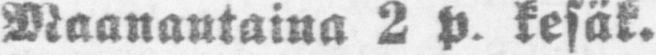Maanantaina 2 p kesäk.
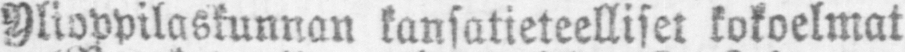Ylioppilaskunnan kansatieteelliset kokoelmat
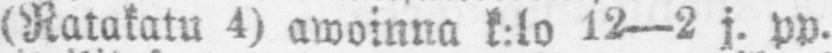(Ratakatu 4) awoinna k:lo 12—2 j. pp.
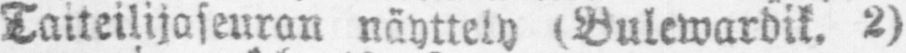Taiteilijaseuran näyttely (Bulewardik. 2)
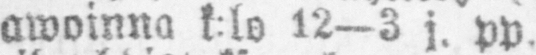awoinna k:lo 12—3 j. pp.
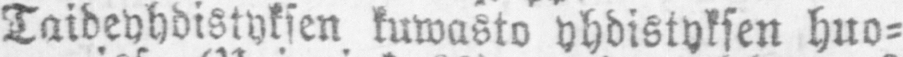Taideyhdistyksen kuwasto yhdistyksen huo-
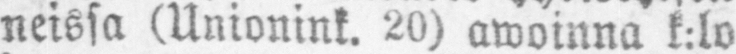neissa (Unionink. 20) awoinna k:lo 1—3
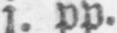j. pp.
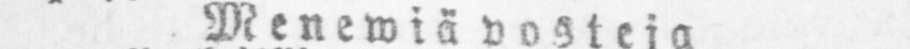Menewiä posteja
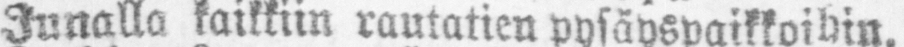Junalla kaikkiin rautatien pysäyspaikkohin.
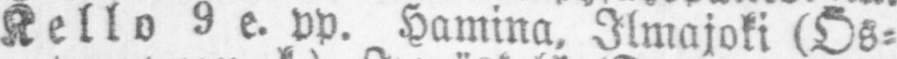Kello 9 e. pp. Hamina. Ilmajoki (Ös-
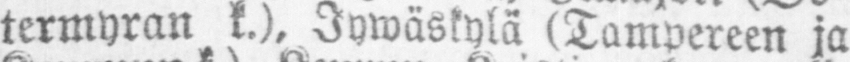termyran k.), Jywäskylä (Tampereen ja
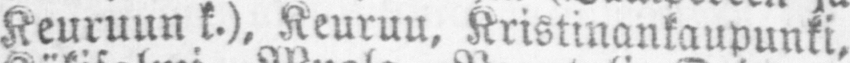Keuruun k.), Keuruu, Kristinankaupunki,
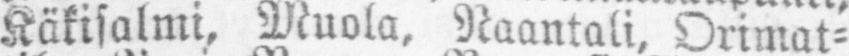Käkisalmi, Muola, Naantali, Orimat-
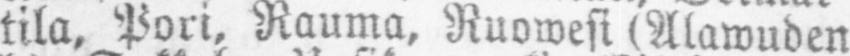tila. Pori. Rauma, Ruowesi (Alawuden
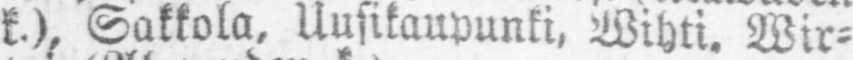k.), Sakkola. Uusikaupunki, Wihti, Wir-
